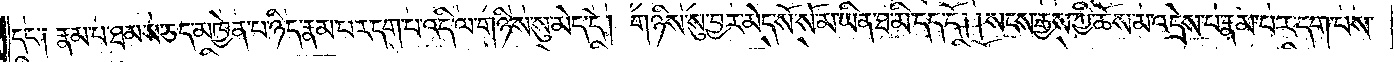དང་༑ རྣམ་པ་ཐམས་ཅད་མཁྱེན་པ་ཉིད་རྣམ་པར་དག་པ་འདི་ལ་གཉིས་སུ་མེད་དེ། གཉིས་སུ་བྱར་མེད་སོ་སོ་མ་ཡིན་ཐ་མི་དད་དོ། །སངས་རྒྱས་ཀྱི་ཆོས་མ་འདྲེས་པ་རྣམ་པར་དག་པས་
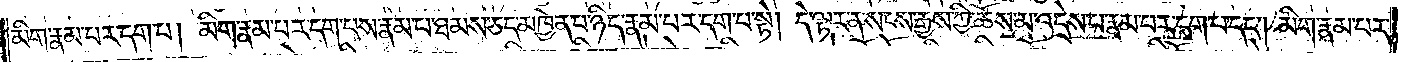མིག་རྣམ་པར་དག་པ། མིག་རྣམ་པར་དག་པས་རྣམ་པ་ཐམས་ཅད་མཁྱེན་པ་ཉིད་རྣམ་པར་དག་པ་སྟེ། དེ་ལྟར་ན་སངས་རྒྱས་ཀྱི་ཆོས་མ་འདྲེས་པ་རྣམ་པར་དག་པ་དང༌། མིག་རྣམ་པར་
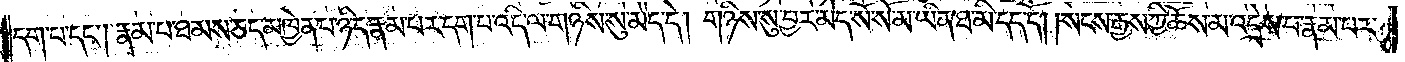དག་པ་དང༌། རྣམ་པ་ཐམས་ཅད་མཁྱེན་པ་ཉིད་རྣམ་པར་དག་པ་འདི་ལ་གཉིས་སུ་མེད་དེ། གཉིས་སུ་བྱར་མེད་སོ་སོ་མ་ཡིན་ཐ་མི་དད་དོ། །སངས་རྒྱས་ཀྱི་ཆོས་མ་འདྲེས་པ་རྣམ་པར་
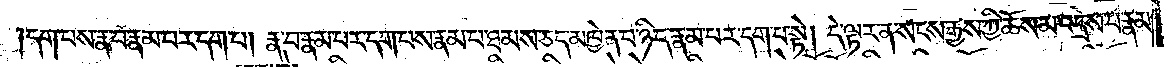དག་པས་རྣ་བ་རྣམ་པར་དག་པ། རྣ་བ་རྣམ་པར་དག་པས་རྣམ་པ་ཐམས་ཅད་མཁྱེན་པ་ཉིད་རྣམ་པར་དག་པ་སྟེ། དེ་ལྟར་ན་སངས་རྒྱས་ཀྱི་ཆོས་མ་འདྲེས་པ་རྣམ་
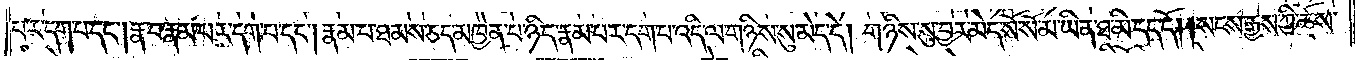པར་དག་པ་དང༌། རྣ་བ་རྣམ་པར་དག་པ་དང༌། རྣམ་པ་ཐམས་ཅད་མཁྱེན་པ་ཉིད་རྣམ་པར་དག་པ་འདི་ལ་གཉིས་སུ་མེད་དེ། གཉིས་སུ་བྱར་མེད་སོ་སོ་མ་ཡིན་ཐ་མི་དད་དོ། །སངས་རྒྱས་ཀྱི་ཆོས་
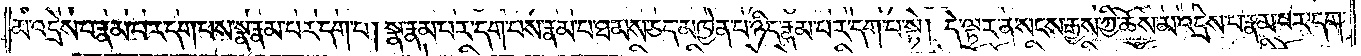མ་འདྲེས་པ་རྣམ་པར་དག་པས་སྣ་རྣམ་པར་དག་པ། སྣ་རྣམ་པར་དག་པས་རྣམ་པ་ཐམས་ཅད་མཁྱེན་པ་ཉིད་རྣམ་པར་དག་པ་སྟེ། དེ་ལྟར་ན་སངས་རྒྱས་ཀྱི་ཆོས་མ་འདྲེས་པ་རྣམ་པར་དག་
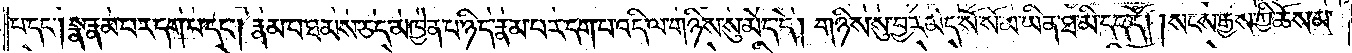པ་དང༌། སྣ་རྣམ་པར་དག་པ་དང༌། རྣམ་པ་ཐམས་ཅད་མཁྱེན་པ་ཉིད་རྣམ་པར་དག་པ་འདི་ལ་གཉིས་སུ་མེད་དེ། གཉིས་སུ་བྱར་མེད་སོ་སོ་མ་ཡིན་ཐ་མི་དད་དོ། །སངས་རྒྱས་ཀྱི་ཆོས་མ་
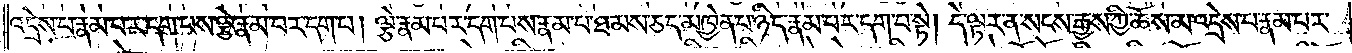འདྲེས་པ་རྣམ་པར་དག་པས་ལྕེ་རྣམ་པར་དག་པ། ལྕེ་རྣམ་པར་དག་པས་རྣམ་པ་ཐམས་ཅད་མཁྱེན་པ་ཉིད་རྣམ་པར་དག་པ་སྟེ། དེ་ལྟར་ན་སངས་རྒྱས་ཀྱི་ཆོས་མ་འདྲེས་པ་རྣམ་པར་
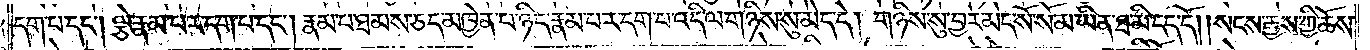དག་པ་དང༌། ལྕེ་རྣམ་པར་དག་པ་དང༌། རྣམ་པ་ཐམས་ཅད་མཁྱེན་པ་ཉིད་རྣམ་པར་དག་པ་འདི་ལ་གཉིས་སུ་མེད་དེ། གཉིས་སུ་བྱར་མེད་སོ་སོ་མ་ཡིན་ཐ་མི་དད་དོ། །སངས་རྒྱས་ཀྱི་ཆོས་
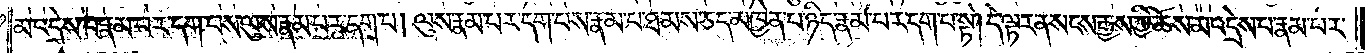མ་འདྲེས་པ་རྣམ་པར་དག་པས་ལུས་རྣམ་པར་དག་པ། ལུས་རྣམ་པར་དག་པས་རྣམ་པ་ཐམས་ཅད་མཁྱེན་པ་ཉིད་རྣམ་པར་དག་པ་སྟེ། དེ་ལྟར་ན་སངས་རྒྱས་ཀྱི་ཆོས་མ་འདྲེས་པ་རྣམ་པར་
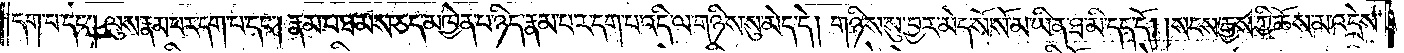དག་པ་དང༌། ལུས་རྣམ་པར་དག་པ་དང༌། རྣམ་པ་ཐམས་ཅད་མཁྱེན་པ་ཉིད་རྣམ་པར་དག་པ་འདི་ལ་གཉིས་སུ་མེད་དེ། གཉིས་སུ་བྱར་མེད་སོ་སོ་མ་ཡིན་ཐ་མི་དད་དོ། །སངས་རྒྱས་ཀྱི་ཆོས་མ་འདྲེས་
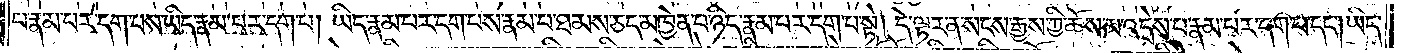པ་རྣམ་པར་དག་པས་ཡིད་རྣམ་པར་དག་པ། ཡིད་རྣམ་པར་དག་པས་རྣམ་པ་ཐམས་ཅད་མཁྱེན་པ་ཉིད་རྣམ་པར་དག་པ་སྟེ། དེ་ལྟར་ན་སངས་རྒྱས་ཀྱི་ཆོས་མ་འདྲེས་པ་རྣམ་པར་དག་པ་དང༌། ཡིད་
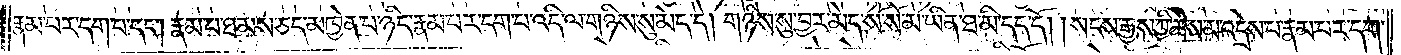རྣམ་པར་དག་པ་དང༌། རྣམ་པ་ཐམས་ཅད་མཁྱེན་པ་ཉིད་རྣམ་པར་དག་པ་འདི་ལ་གཉིས་སུ་མེད་དེ། གཉིས་སུ་བྱར་མེད་སོ་སོ་མ་ཡིན་ཐ་མི་དད་དོ། །སངས་རྒྱས་ཀྱི་ཆོས་མ་འདྲེས་པ་རྣམ་པར་དག་
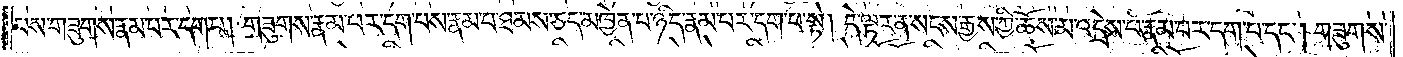པས་གཟུགས་རྣམ་པར་དག་པ། གཟུགས་རྣམ་པར་དག་པས་རྣམ་པ་ཐམས་ཅད་མཁྱེན་པ་ཉིད་རྣམ་པར་དག་པ་སྟེ། དེ་ལྟར་ན་སངས་རྒྱས་ཀྱི་ཆོས་མ་འདྲེས་པ་རྣམ་པར་དག་པ་དང༌། གཟུགས་
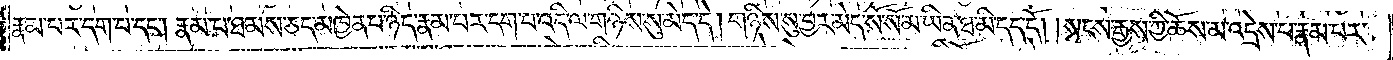རྣམ་པར་བདག་པ་དང༌། རྣམ་པ་ཐམས་ཅད་མཁྱེན་པ་ཉིད་རྣམ་པར་དག་པ་འདི་ལ་གཉིས་སུ་མེད་དེ། གཉིས་སུ་བྱར་མེད་སོ་སོ་མ་ཡིན་ཐ་མི་དད་དོ། །སངས་རྒྱས་ཀྱི་ཆོས་མ་འདྲེས་པ་རྣམ་པར་
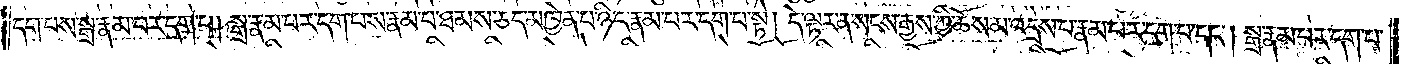དག་པས་སྒྲ་རྣམ་པར་དག་པ། སྒྲ་རྣམ་པར་དག་པས་རྣམ་པ་ཐམས་ཅད་མཁྱེན་པ་ཉིད་རྣམ་པར་དག་པ་སྟེ། དེ་ལྟར་ན་སངས་རྒྱས་ཀྱི་ཆོས་མ་འདྲེས་པ་རྣམ་པར་དག་པ་དང༌། སྒྲ་རྣམ་པར་དག་པ་
